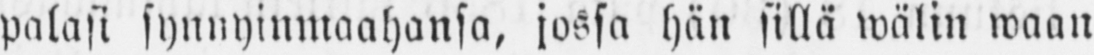palasi synnyinmaahansa, jossa hän sillä wälin waan
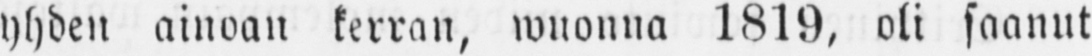yhden ainoan kerran, wuonna 1819, oli saanut
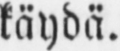käydä.
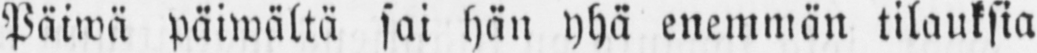Päiwä päiwältä sai hän yhä enemmän tilauksia
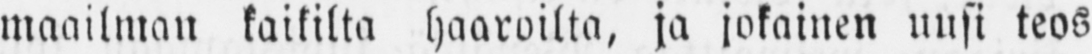maailman kaikilta haaroilta, ja jokainen uusi teos
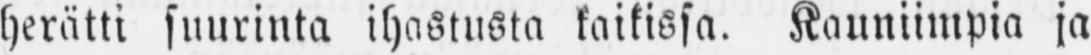herätti suurinta ihastusta kaikissa. Kauniimpia ja
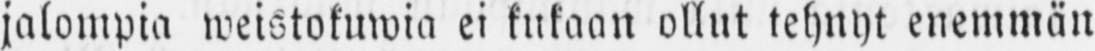jalompia weistokuwia ei kukaan ollut tehnyt enemmän
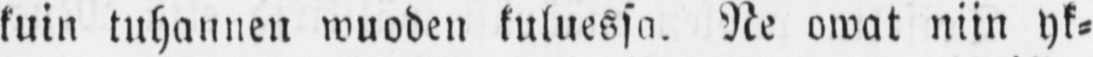kuin tuhannen wuoden kuluessa. Ne owat niin yk-
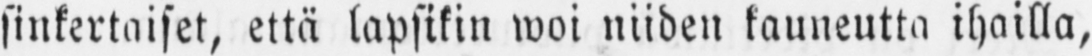sinkertaiset, että lapsikin woi niiden kauneutta ihailla,
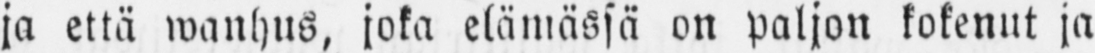ja että wanhus, joka elämässä on paljon kokenut ja
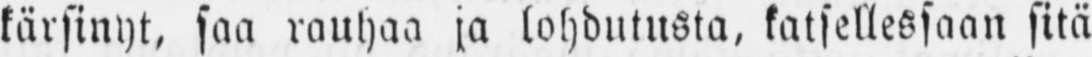kärsinyt, saa rauhaa ja lohdutusta, katsellessaan sitä
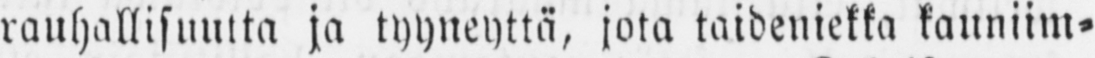rauhallisuutta ja tyyneyttä, jota taideniekka kauniim-
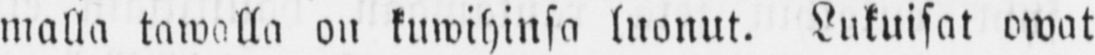malla tawalla on kuwihinsa luonut. Lukuisat owat
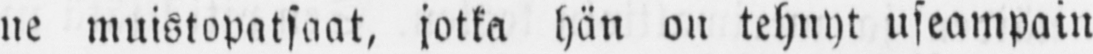ne muistopatsaat, jotka hän on tehnyt useampain
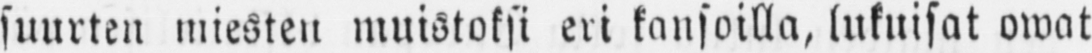suurten miesten muistoksi eri kansoilla, lukuisat owat
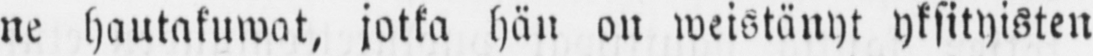ne hautakuwat, jotka hän on weistänyt yksityisten
